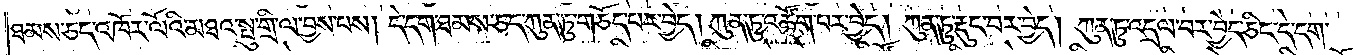ཐམས་ཅད་འཁོར་ལོའི་མཐའི་སྤུ་གྲི་ལ་བྱས་པས། དེ་དག་ཐམས་ཅད་ཀུན་ཏུ་གཅོད་པར་བྱེད། ཀུན་ཏུ་འཚོག་པར་བྱེད། ཀུན་ཏུ་རྡུང་བར་བྱེད། ཀུན་ཏུ་འདྲལ་བར་བྱེད་ཅིང་དེ་དག་
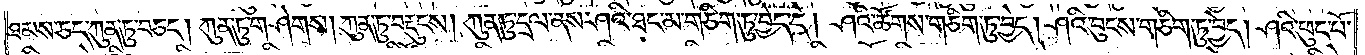ཐམས་ཅད་ཀུན་ཏུ་བཅད། ཀུན་ཏུ་གཤེགས། ཀུན་ཏུ་བརྡུངས། ཀུན་ཏུ་དྲལ་ནས་ཤའི་ཐང་མ་གཅིག་ཏུ་བྱེད་དེ། ཤའི་ཚོགས་གཅིག་ཏུ་བྱེད། ཤའི་བུངས་གཅིག་ཏུ་བྱེད། ཤའི་ཕུང་པོ་
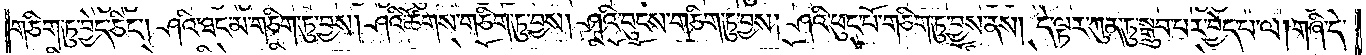གཅིག་ཏུ་བྱེད་ཅིང༌། ཤའི་ཐང་མ་གཅིག་ཏུ་བྱས། ཤའི་ཚོགས་གཅིག་ཏུ་བྱས། ཤའི་བུངས་གཅིག་ཏུ་བྱས། ཤའི་ཕུང་པོ་གཅིག་ཏུ་བྱས་ནས། དེ་ལྟར་ཀུན་ཏུ་སྒྲུབ་པར་བྱེད་པ་ལ། གཞི་དེ་
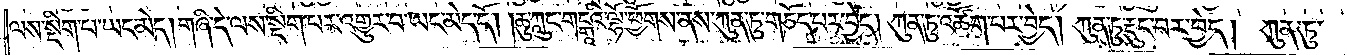ལས་སྡིག་པ་ཡང་མེད། གཞི་དེ་ལས་སྡིག་པར་འགྱུར་བ་ཡང་མེད་དོ། །ཆུ་ཀླུང་གངྒཱའི་ལྷོ་ཕྱོགས་ནས་ཀུན་ཏུ་གཅོད་པར་བྱེད། ཀུན་ཏུ་འཚོག་པར་བྱེད། ཀུན་ཏུ་རྡུང་བར་བྱེད། ཀུན་ཏུ་
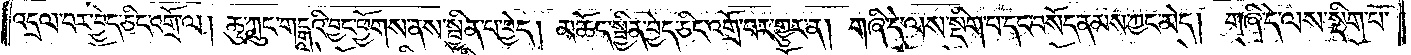འདྲལ་བར་བྱེད་ཅིང་འགྲོ་ལ། ཆུ་ཀླུང་གངྒཱའི་བྱང་ཕྱོགས་ནས་སྦྱིན་པ་བྱེད། མཆོད་སྦྱིན་བྱེད་ཅིང་འགྲོ་བར་གྱུར་ན། གཞི་དེ་ལས་སྡིག་པ་དང་བསོད་ནམས་ཀྱང་མེད། གཞི་དེ་ལས་སྡིག་པ་
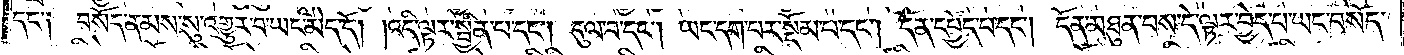དང་༑ བསོད་ནམས་སུ་འགྱུར་བ་ཡང་མེད་དོ། །འདི་ལྟར་སྦྱིན་པ་དང༌། དུལ་བ་དང༌། ཡང་དག་པར་སྡོམ་པ་དང༌། དོན་དཔྱོད་པ་དང༌། དོན་མཐུན་པས་དེ་ལྟར་བྱེད་པ་ཡང་བསོད་
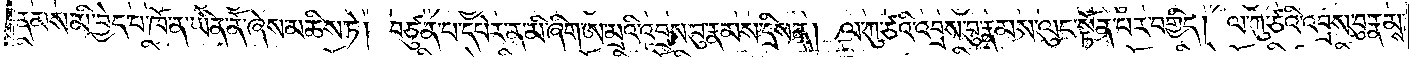ནམས་མི་བྱེད་པ་ཁོ་ན་ཡིན་ནོ་ཞེས་མཆིས་ཏེ། བཙུན་པ་དཔེར་ན་མི་ཞིག་ཨ་མྲའི་འབྲས་བུ་རྣམས་དྲིས་ན། ལ་ཀུ་ཙའི་འབྲས་བུ་རྣམས་ལུང་སྟོན་པར་བགྱིད། ལ་ཀུ་ཙའི་འབྲས་བུ་རྣམས་
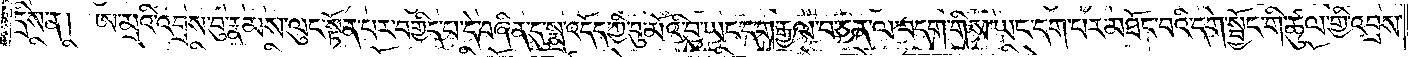དྲིས་ན། ཨ་མྲའི་འབྲས་བུ་རྣམས་ལུང་སྟོན་པར་བགྱིད་པ་དེ་བཞིན་དུ་སྨྲ་འདོད་ཀྱི་བུ་མོའི་བུ་ཡང་དག་རྒྱལ་བ་ཅན་ལ་བདག་གིས་ཡང་དག་པར་མཐོང་བའི་དགེ་སྦྱོང་གི་ཚུལ་གྱི་འབྲས་
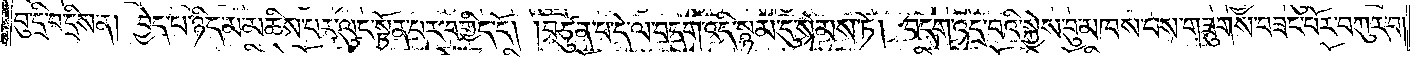བུ་དྲི་བ་དྲིས་ན། བྱེད་པ་ཉིད་མ་མཆིས་པར་ལུང་སྟོན་པར་བགྱིད་དོ། །བཙུན་པ་དེ་ལ་བདག་འདི་སྙམ་དུ་སེམས་ཏེ། བདག་འདྲ་བའི་སྐྱེས་བུ་མཁས་པས་གཟུགས་བཟང་པོར་བཀུར་བ།
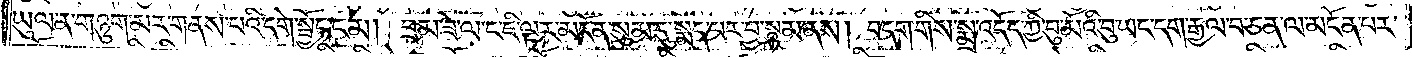ཡུལ་ན་གཉུག་མར་གནས་པའི་དགེ་སྦྱོང་ངམ། བྲམ་ཟེ་ལ་ང་ཇི་ལྟར་མངོན་སུམ་དུ་སྨད་པར་བྱ་སྙམ་ནས། བདག་གིས་སྨྲ་འདོད་ཀྱི་བུ་མོའི་བུ་ཡང་དག་རྒྱལ་བ་ཅན་ལ་མངོན་པར་
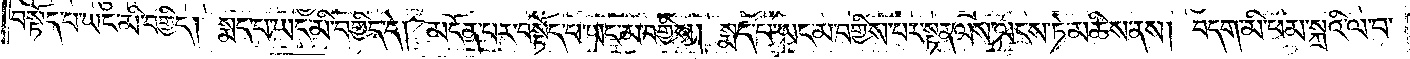བསྟོད་པ་ཡང་མི་བགྱིད། སྨད་པ་ཡང་མི་བགྱིད་དེ། མངོན་པར་བསྟོད་པ་ཡང་མ་བགྱིས། སྨད་པ་ཡང་མ་བགྱིས་པར་སྟན་ལས་ལངས་ཏེ་མཆིས་ནས། བདག་མི་ཕམ་སྐྲའི་ལ་བ་
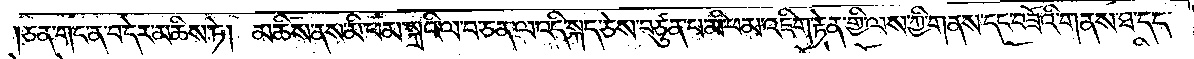ཅན་གང་ན་བ་དེར་མཆིས་ཏེ། མཆིས་ནས་མི་ཕམ་སྐྲའི་ལ་བ་ཅན་ལ་འདི་སྐད་ཅེས་བཙུན་པ་མི་ཕམ་འཇིག་རྟེན་གྱི་ལས་ཀྱི་གནས་དང་བཟོའི་གནས་ཐ་དད་
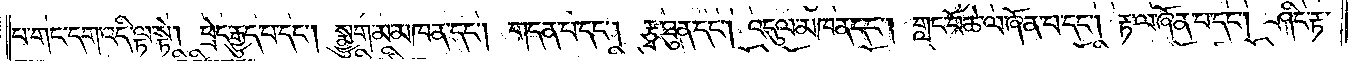པ་གང་དག་འདི་ལྟ་སྟེ། ཕྲེང་རྒྱུད་པ་དང༌། སྨྱུག་མ་མཁན་དང༌། གདན་པ་དང༌། རྩྭ་ཐུན་དང༌། འདུལ་མཁན་དང༌། གླང་པོ་ཆེ་ལ་ཞོན་པ་དང༌། རྟ་ལ་ཞོན་པ་དང༌། ཤིང་རྟ་
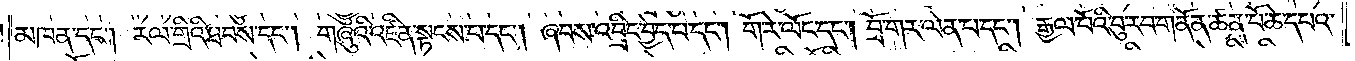མཁན་དང༌། རལ་གྲིའི་ཐབས་དང༌། གཞུའི་འཛིན་སྟངས་པ་དང༌། ཞབས་འབྲིང་བྱེད་པ་དང༌། གོ་རེ་ལོང་དང༌། བྲོ་ག་རེ་ལེན་པ་དང༌། རྒྱལ་པོའི་བུ་རབ་གནོན་ཚན་པོ་ཆེ་དཔའ་
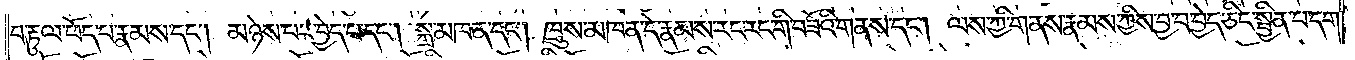བརྟུལ་ཕོད་པ་རྣམས་དང༌། མཉེས་པར་བྱེད་པ་དང༌། སྐྲ་མཁན་དང༌། ཁྲུས་མཁན་དེ་རྣམས་རང་རང་གི་བཟོའི་གནས་དང༌། ལས་ཀྱི་གནས་རྣམས་ཀྱིས་བྱ་བ་བྱེད་ཅིང་སྦྱིན་པ་དག་
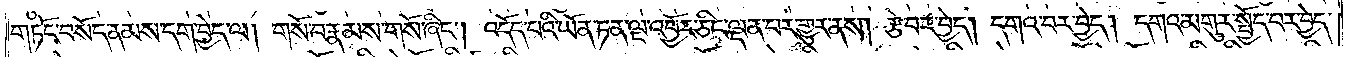གཏོང་བསོད་ནམས་དག་བྱེད་ལ། གསོ་བ་རྣམས་གསོ་ཞིང༌། འདོད་པའི་ཡོན་ཏན་ལྔ་འབྱོར་ཅིང་ལྡན་པར་གྱུར་ནས། རྩེ་བར་བྱེད། དགའ་བར་བྱེད། དགའ་མགུར་སྤྱོད་པར་བྱེད་
